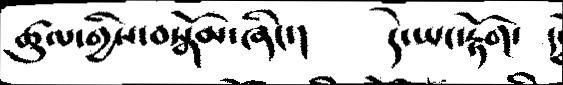ཚུལ་གྱིས་བསྒོམ་ཞིང་།  དེ་ཡང་རྟོག་ ད
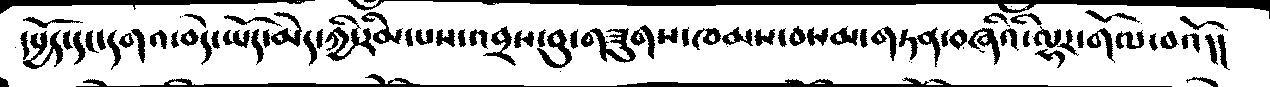དཔྱོད་དང་དགའ་བདེ་ཡོད་མེད་ཀྱི་རིམ་པས་འབྲས་བུ་གཟུགས་ཁམས་བསམ་གཏན་བཞིའི་ལྷར་གོལ་བའོ།།
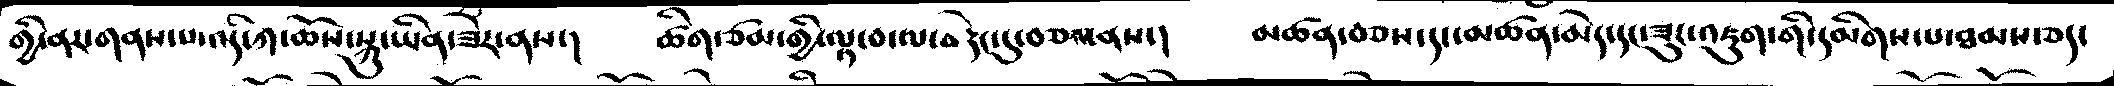གྱི་ནར་གནས་པ་འདི་ཀ་ཆོས་སྐུ་ཡིན་ཟེར་ནས་།   ཚིག་ཙམ་གྱི་ལྟ་བ་ལ་བརྡེང་དུ་བཅས་ནས་།    མཚན་བཅས་དང་མཚན་མེད་དང་ཟུང་འཇུག་གི་དམིགས་པ་ཐམས་ཅད་
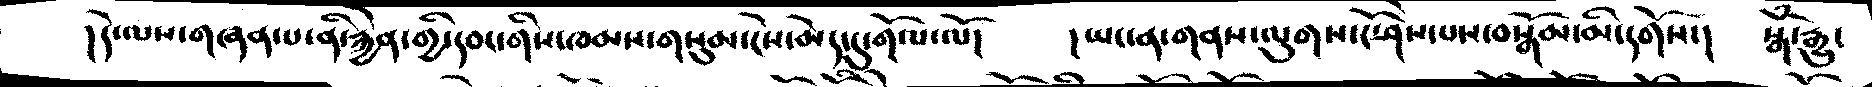།དེ་ལས་གཞན་པ་ནི་རྐྱེན་གྱི་དབང་གིས་ཁམས་གསུམ་ངེས་མེད་དུ་གོལ་ལོ།    །ཡང་ན་གནས་ལུགས་ངོ་ཤེས་པས་བསྒོམ་མི་དགོས་།   སྒོཾ་རྒྱུ་
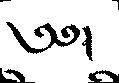༄༅།
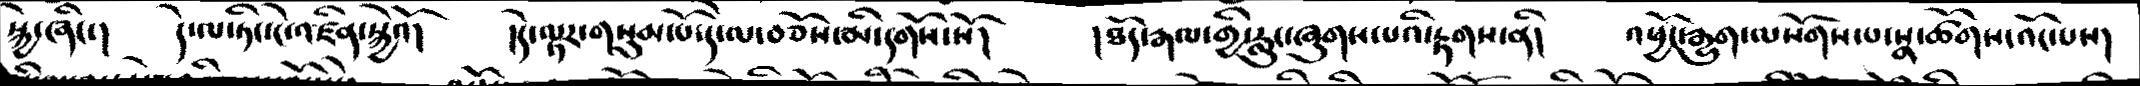སྐྱེ་ཞིང་།    དེ་ལ་ཏིང་ངེ་འཛིན་སྐྱེའོ།    །དེ་ལྟར་གསུམ་པོ་དེ་ལ་བཅོས་མི་དགོས་སོ།     །ཐོད་རྒལ་གྱི་རླུང་ཞུགས་པའི་རྟགས་ནི།   འཕྱོང་རྒྱུག་ལསོགས་པ་སྣ་ཚོགས་འོང་པས།
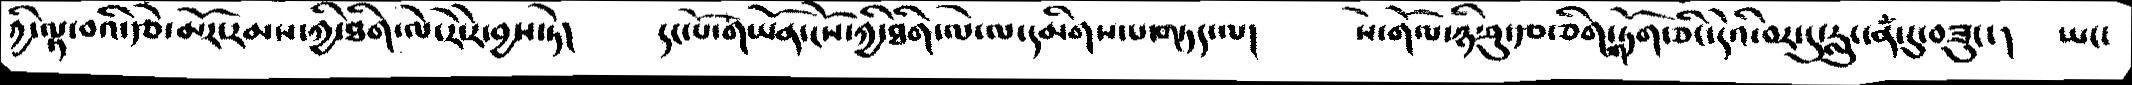གྱི་ལྟ་བའི་རྩེ་མོར་རམས་ཀྱི་ཐིག་ལེ་རེ་རེ་བྱས་ཏེ།   དང་པོ་གཡོན་ངོས་ཀྱི་ཐིག་ལེ་ལ་དམིགས་པ་གཏད་ལ།   སེ་གོལ་ཉི་ཤུ་རྩ་ཅིག་གཏོག་ཅིང་དེའི་བར་དུ་རླུང་ནང་དུ་བཟུང་།   ཡང་
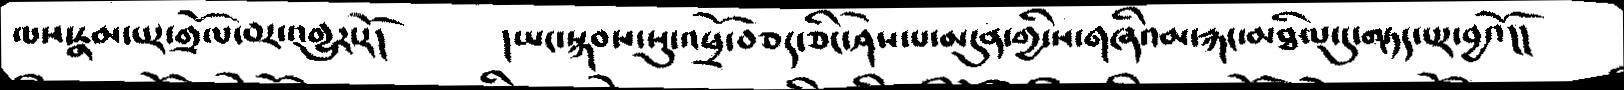ལས་རྣམ་པར་གྲོལ་བར་འགྱུར་རོ།   །ཡང་སྐབས་སུ་འཕྲོ་བཅད་ཅིང་ཤེས་པ་མདུན་གྱི་ས་གཞིའམ་རྐང་མཐིལ་དུ་གཏད་པར་བྱའོ།།
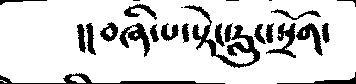།།བཞི་པ་སྟེང་རླུང་སྲོག་
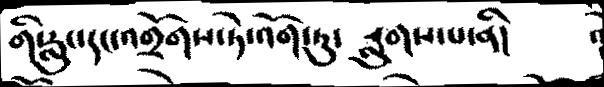གི་རླུང་དང་འགྲོགས་ཏེ་འོག་ཏུ་ རླུགས་པ་ནི།
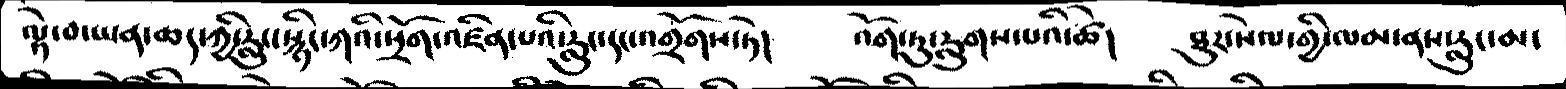ལྟེ་བ་ཡན་ཆད་ཀྱི་རླུང་སྙིང་ཀའི་སྲོག་འཛིན་པའི་རླུང་དང་འགྲོགས་ཏེ།   འོག་ཏུ་རླུགས་པའི་ཚེ།   ཐུར་སེལ་གྱི་ལམ་ནས་རླུང་མ་
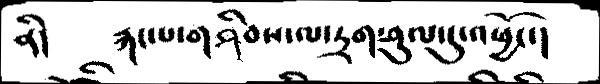ནི།    རྐང་པ་གཤིབས་ལ་དྲག་ཤུལ་དུ་འཕྱོང་།
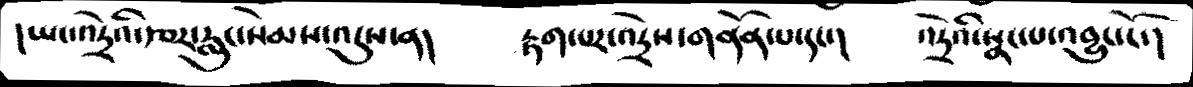།ཡང་འདྲེའི་རྩར་རླུང་སེམས་འདུས་ན།   རྟག་པར་འདྲེས་གནོན་པ་དང་།   འདྲེའི་སྣང་པ་འབྱུང་ངོ་།
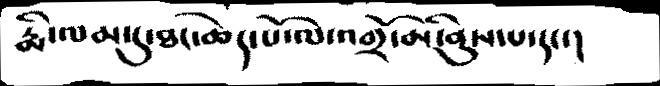རྨི་ལམ་དུ་ཐང་ཆེད་པོ་ལ་འགྲོ་མི་ནུས་པ་དང་།
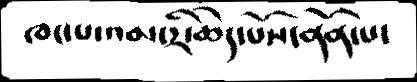ཁང་པ་འམ་རི་ཆེད་པོས་ནོན་པ་
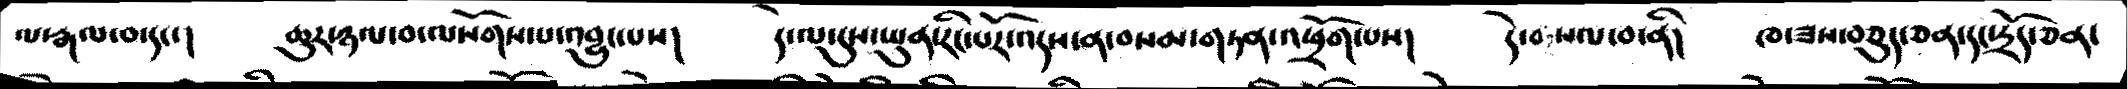ལ་རྒལ་བ་དང་།   ཆུར་ཉལ་བ་ལསོགས་པ་འབྱུང་པས།    དེ་ལ་དུས་ཡུན་རིང་པོར་འདས་ན་བསམ་གཏན་འཕྲོག་པས།   དེ་བསལ་བ་ནི།    ཁ་ཟས་བཅུད་ཅན་དང་དྲོད་ཅན་
